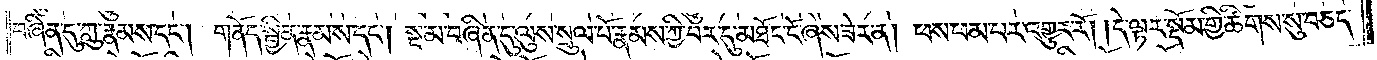བཞིན་དུ་ཀླུ་རྣམས་དང༌། གནོད་སྦྱིན་རྣམས་དང༌། སྔ་མ་བཞིན་དུ་ལུས་སྲུལ་པོ་རྣམས་ཀྱི་བར་དུ་མཐོང་ངོ་ཞེས་ཟེར་ན། ཕས་ཕམ་པར་འགྱུར་རོ། །དེ་ལྟར་སྡོམ་གྱི་ཚིགས་སུ་བཅད་
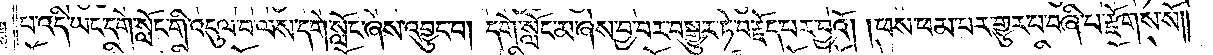པ་འདི་ཡང་དགེ་སློང་གི་འདུལ་བ་ལས་དགེ་སློང་ཞེས་འབྱུང་བ། དགེ་སློང་མ་ཞེས་བྱ་བར་བསྒྱུར་ཏེ་བརྗོད་པར་བྱའོ། །ཕས་ཕམ་པར་གྱུར་པ་བཞི་པ་རྫོགས་སོ༎
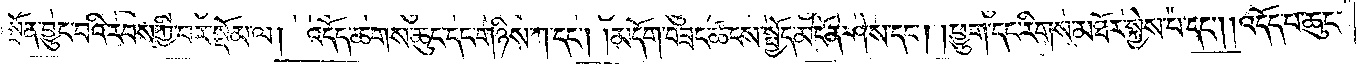སྔོན་བྱུང་བའི་རབས་ཀྱི་བར་སྡོམ་ལ། འདོད་ཆགས་ཆུང་དང་གཉིས་ཀ་དང༌། །མདོག་བཟང་ཚངས་སྤྱོད་མངོན་ཤེས་དང༌། །ཕྱུག་དང་རིགས་མཐོར་སྐྱེས་པ་དང༌། །འདོད་པ་ཆུང་
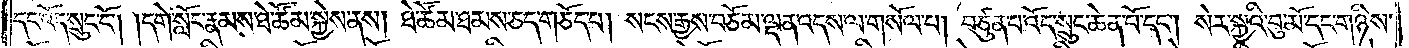དང་འོད་སྲུང་ངོ༌། །དགེ་སློང་རྣམས་ཐེ་ཚོམ་སྐྱེས་ནས། ཐེ་ཚོམ་ཐམས་ཅད་གཅོད་པ། སངས་རྒྱས་བཅོམ་ལྡན་འདས་ལ་གསོལ་པ། བཙུན་པ་འོད་སྲུང་ཆེན་པོ་དང༌། སེར་སྐྱའི་བུ་མོ་དང་གཉིས་
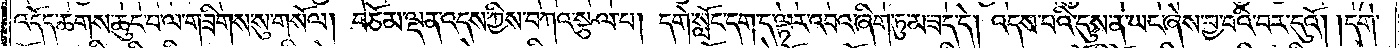འདོད་ཆགས་ཆུང་བ་ལ་གཟིགས་སུ་གསོལ། བཅོམ་ལྡན་འདས་ཀྱིས་བཀའ་སྩལ་པ། དགེ་སློང་དག་ད་ལྟར་འབའ་ཞིག་ཏུ་མ་ཟད་དེ། འདས་པའི་དུས་ན་ཡང་ཞེས་བྱ་བའི་བར་དུའོ། །དགེ་
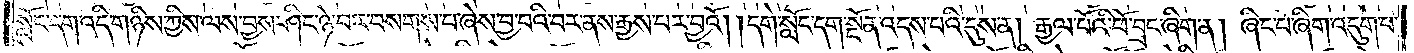སློང་དག་འདི་གཉིས་ཀྱིས་ལས་བྱས་ཤིང་ཉེ་བར་བསགས་པ་ཞེས་བྱ་བའི་བར་ནས་རྒྱས་པར་བྱའོ། །དགེ་སློང་དག་སྔོན་འདས་པའི་དུས་ན། རྒྱལ་པོའི་ཕོ་བྲང་ཞིག་ན། ཞིང་པ་ཞིག་འདུག་པ་
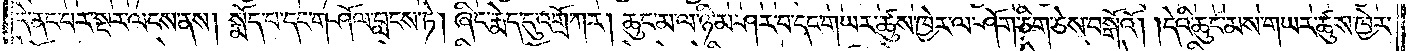དེ་ནང་པར་སྔར་ལངས་ནས། སྨོད་པ་དང་གཤོལ་བླངས་ཏེ། ཞིང་རྨེད་དུ་འགྲོ་ཀར། ཆུང་མ་ལ་ཉི་མ་ཤར་བ་དང་གཡར་ཚུས་ཁྱེར་ལ་ཤོག་ཅིག་ཅེས་བསྒོའོ། །དེའི་ཆུང་མས་གཡར་ཚུས་ཁྱེར་
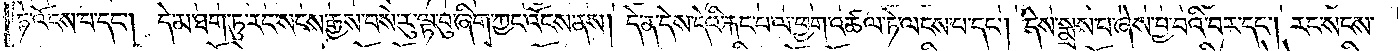ཏེ་འོངས་པ་དང༌། དེ་མ་ཐག་ཏུ་རང་སངས་རྒྱས་བསེ་རུ་ལྟ་བུ་ཞིག་ཀྱང་འོངས་ནས། དེ་ན་དེས་དེའི་རྐང་པ་ལ་ཕྱག་འཚལ་ཏེ་ལངས་པ་དང༌། དེས་སྨྲས་པ་ཞེས་བྱ་བའི་བར་དང༌། རང་སངས་
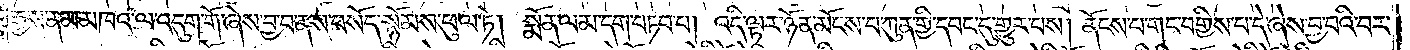རྒྱས་ནམ་མཁའ་ལ་འདུག་གོ་ཞེས་བྱ་བ་ནས་བསོད་སྙོམས་ཕུལ་ཏེ། སྨོན་ལམ་དག་བཏབ་པ། འདི་ལྟར་ཉོན་མོངས་པ་ཀུན་གྱི་དབང་དུ་གྱུར་པས། ནོངས་པ་གང་བགྱིས་པ་དེ་ཞེས་བྱ་བའི་བར་
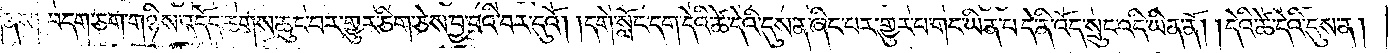ནས༑ བདག་ཅག་གཉིས་འདོད་ཆགས་ཆུང་བར་གྱུར་ཅིག་ཅེས་བྱ་བའི་བར་དུའོ། །དགེ་སློང་དག་དེའི་ཚེ་དེའི་དུས་ན་ཞིང་པར་གྱུར་པ་གང་ཡིན་པ་དེ་ནི་འོད་སྲུང་འདི་ཡིན་ནོ། །དེའི་ཚེ་དེའི་དུས་ན།
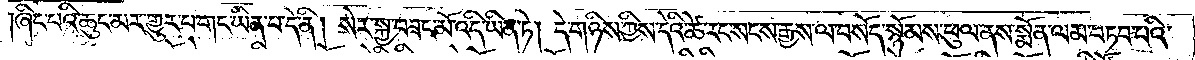ཞིང་པའི་ཆུང་མར་གྱུར་པ་གང་ཡིན་པ་དེ་ནི། སེར་སྐྱ་བཟང་མོ་འདི་ཡིན་ཏེ། དེ་གཉིས་ཀྱིས་དེའི་ཚེ་རང་སངས་རྒྱས་ལ་བསོད་སྙོམས་ཕུལ་ནས་སྨོན་ལམ་བཏབ་པའི་
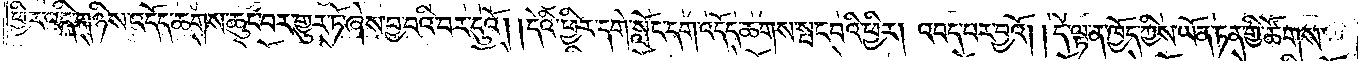ཕྱིར་འདི་གཉིས་པ་འདོད་ཆགས་ཆུང་བར་གྱུར་ཏོ་ཞེས་བྱ་བའི་བར་དུའོ། །དེའི་ཕྱིར་དགེ་སློང་དག་འདོད་ཆགས་སྤང་བའི་ཕྱིར། འབད་བར་བྱའོ། །དེ་ལྟ་ན་ཁྱོད་ཀྱིས་ཡོན་ཏན་གྱི་ཚོགས་
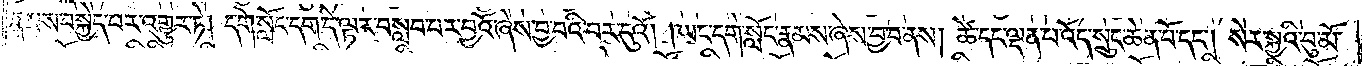རྣམས་བསྐྱེད་པར་འགྱུར་ཏེ། དགེ་སློང་དག་དེ་ལྟར་བསླབ་པར་བྱའོ་ཞེས་བྱ་བའི་བར་དུའོ། །ཡང་དགེ་སློང་རྣམས་ཞེས་བྱ་བ་ནས། ཚེ་དང་ལྡན་པ་འོད་སྲུང་ཆེན་པོ་དང༌། སེར་སྐྱའི་བུ་མོ་
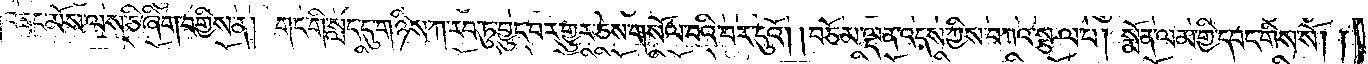བཟང་མོས་ལས་ཅི་ཞིག་བགྱིས་ན། གང་གི་སླད་དུ་གཉིས་ཀ་རབ་ཏུ་བྱུང་བར་གྱུར་ཅེས་གསོལ་བའི་བར་དུའོ། །བཅོམ་ལྡན་འདས་ཀྱིས་བཀའ་སྩལ་པ། སྨོན་ལམ་གྱི་དབང་གིས་སོ། །
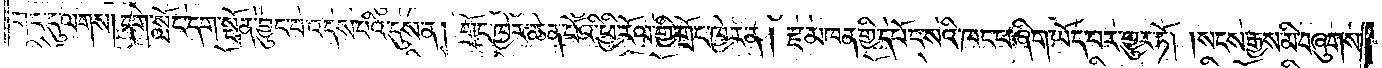གང་དུ་ལགས། དགེ་སློང་དག་སྔོན་བྱུང་བ་འདས་པའི་དུས་ན། གྲོང་ཁྱེར་ཆེན་པོའི་ཕྱི་རོལ་གྱི་གྲོང་ཁྱེར་ན། རྫ་མཁན་གྱི་དཔོང་སའི་ཁང་པ་ཞིག་ཡོད་པར་གྱུར་ཏོ། །སངས་རྒྱས་མི་བཞུགས་
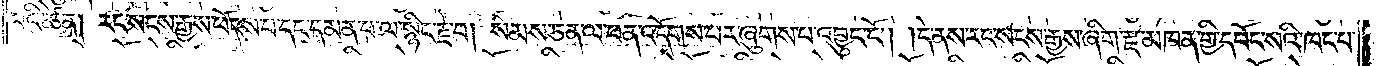པའི་ཚེ་ན། རང་སངས་རྒྱས་ཕོངས་པ་དང་དམན་པ་ལ་སྙིང་རྗེ་པ། སེམས་ཅན་ལ་ཕན་འདོགས་པར་ཞུགས་པ་འབྱུང་ངོ༌། །དེ་ནས་རང་སངས་རྒྱས་ཞིག་རྫ་མཁན་གྱི་དཔོང་སའི་ཁང་པ་
